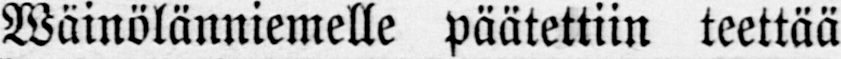Wäinölänniemelle päätettiin teettää
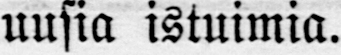uusia istuimia.
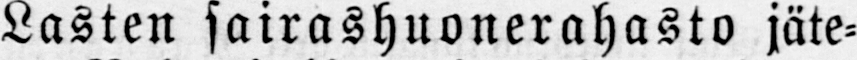Lasten sairashuonerahasto jäte-
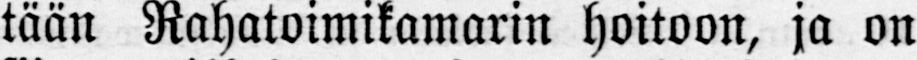tään Rahatoimikamarin hoitoon, ja on
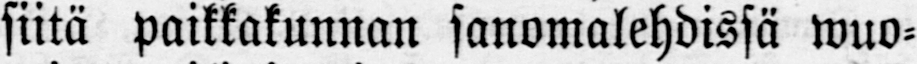siitä paikkakunnan sanomalehdissä wuo-
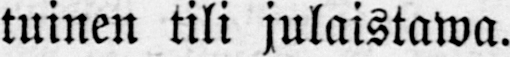tuinen tili julaistawa.
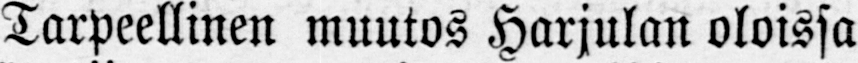Tarpeellinen muutos Harjulan oloissa
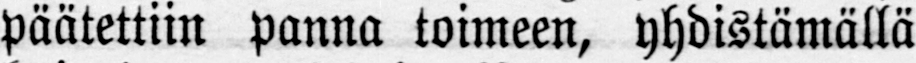päätettiin panna toimeen, yhdistämällä
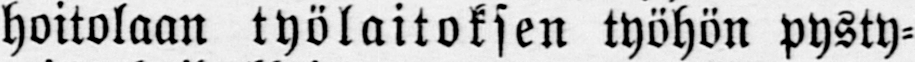hoitolaan työlaitoksen työhön pysty-
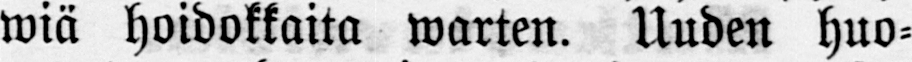wiä hoidokkaita warten. Uuden huo-
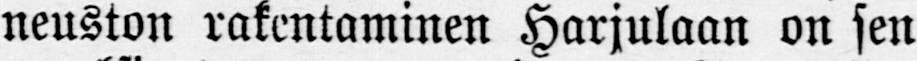neuston rakentaminen Harjulaan on sen
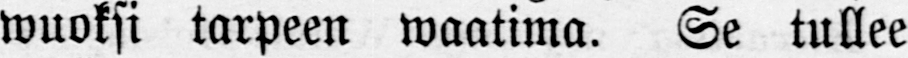wuoksi tarpeen waatima. Se tullee
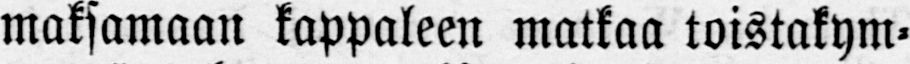maksamaan kappaleen matkaa toistakym-
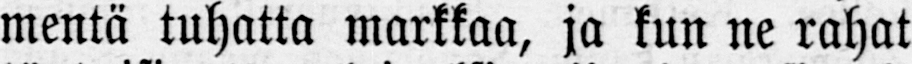mentä tuhatta markkaa, ja kun ne rahat
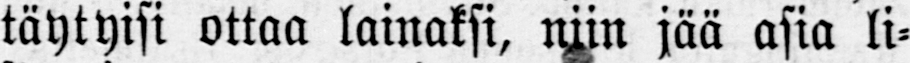täytyisi ottaa lainaksi, niin jää asia li-
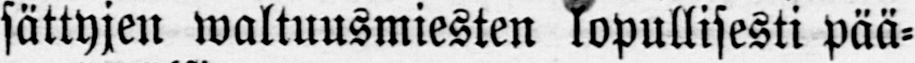sättyjen waltuusmiesten lopullisesti pää-
